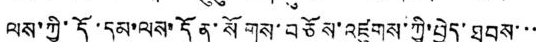ལས་ཀྱི་དོ་དམ་ལས་དོན་སོགས་བཅོས་འཛུགས་ཀྱི་བྱེད་ཐབས་་་
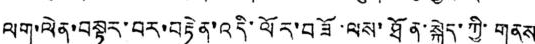ལག་ལེན་བསྟར་བར་བརྟེན་འདི་ལོར་བཟོ་ལས་ཐོན་སྐྱེད་ཀྱི་གནས
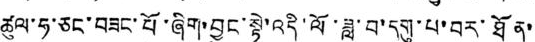ཚུལ་ཧ་ཅང་བཟང་པོ་ཞིག་བྱུང་སྟེ་འདི་ལོ་ཟླ་བ་དགུ་པ་བར་ཐོན་
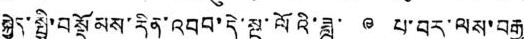སྐྱེད་སྤྱི་བསྡོམས་རིན་འབབ་དེ་སྔ་ལོའི་ཟླ་ ༩ པ་བར་ལས་བརྒྱ་
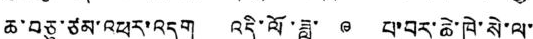ཆ་བཅུ་ཙམ་འཕར་འདུག འདི་ལོ་ཟླ་ ༩ པ་བར་ཆེ་ཁེ་སེ་ལ་
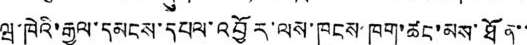ཝ་ཁེའི་རྒྱལ་དམངས་དཔལ་འབྱོར་ལས་ཁུངས་ཁག་ཚང་མས་ཐོན་་
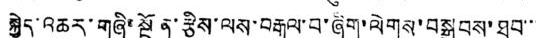སྐྱེད་འཆར་གཞི་སྔོན་རྩིས་ལས་བརྒལ་བ་ཞིག་ལེགས་བསྒྲུབས་ཐུབ་་་
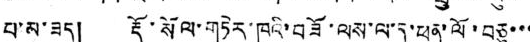པ་མ་ཟད། རྡོ་སོལ་གཏེར་ཁའི་བཟོ་ལས་ལ་ད་ཕན་ལོ་བཅུ་་་
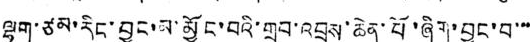ལྷག་ཙམ་རིང་བྱུང་མ་མྱོང་བའི་གྲུབ་འབྲས་ཆེན་པོ་ཞིག་བྱུང་བ་་་
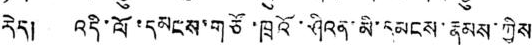རེད། འདི་ལོ་དམངས་གཙོ་ཁྲའོ་ཤིའན་མི་དམངས་རྣམས་ཀྱིས
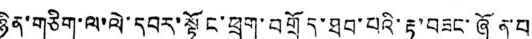ཉིན་གཅིག་ལ་ལེ་དབར་སྟོང་ཕྲག་བགྲོད་ཐུབ་པའི་རྟ་བཟང་ཞོན་པ
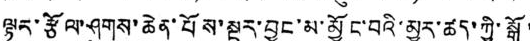ལྟར་རྩོལ་ཤུགས་ཆེན་པོས་སྔར་བྱུང་མ་མྱོང་བའི་མྱུར་ཚད་ཀྱི་སྒོ་
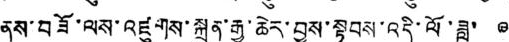ནས་བཟོ་ལས་འཛུགས་སྐྲུན་རྒྱ་ཆེར་བྱས་སྟབས་འདི་ལོ་ཟླ་ ༩
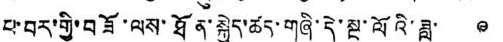པ་བར་གྱི་བཟོ་ལས་ཐོན་སྐྱེད་ཚད་གཞི་དེ་སྔ་ལོའི་ཟླ་ ༩
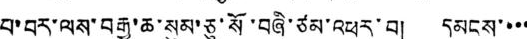པ་བར་ལས་བརྒྱ་ཆ་སུམ་ཅུ་སོ་བཞི་ཙམ་འཕར་བ། དམངས་་་་
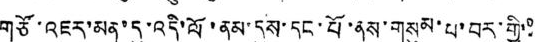གཙོ་འཇར་མན་དུ་འདི་ལོ་ནམ་དུས་དང་པོ་ནས་གསུམ་པ་བར་གྱི་་
